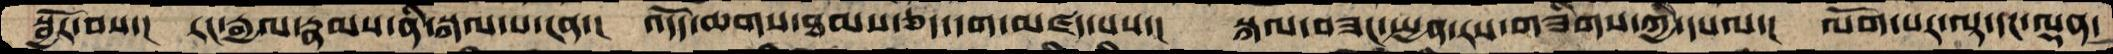སྦྱོར་བས་།  རང་རྒྱལ་རྣམས་ནི་སྐལ་པ་ངན་།   འདོད་ཆགས་ཐམས་ཅད་དག་མཛད་པས་།  སྐལ་བཟང་སྤྱན་རས་གཟིགས་ཀྱི་དཔལ་།  ལོག་པར་ལྟ་དང་ལྡན་
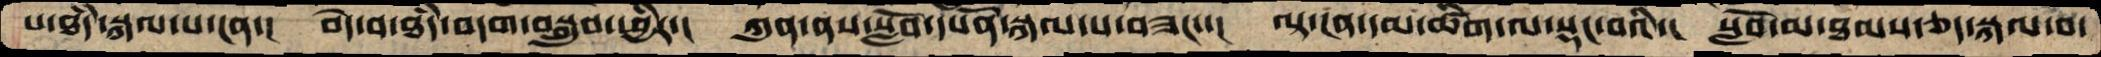པ་ཐཾད་སྐལ་པ་ངན་།   བདེ་བ་ཐཾད་བདག་བསྒྲུབ་ཕྱིར་།  ཀུན་ནས་སློབ་དཔོན་སྐལ་པ་བཟང་་།  ལྟ་ངན་དམ་ཚིག་ལ་སྡང་བའི་།  སློབ་མ་ཐམས་ཅད་སྐལ་བ་
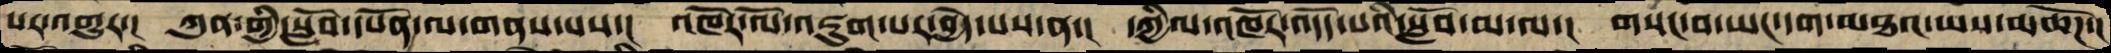པར་འགྱུར་།   ཀུན་གྱི་སློབ་དཔོན་ལ་གནས་པས་།  འཁོར་ལོ་འཇུག་པར་བྱེད་པས་ན་།  དཀྱིལ་འཁོར་འདོད་པའི་སློབ་མ་ལ་།   གསང་བ་ཡང་དག་མཐའ་ཡས་མཆོཌ་།
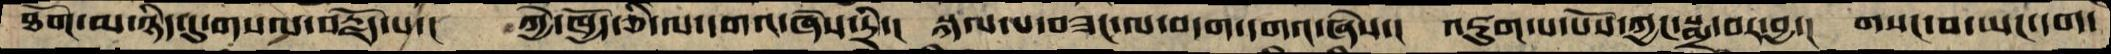ཐོག་མ་ཉིད་དུ་གསལ་བརྗོད་པ་།   ཀྱེ་ཁྱོད་ཅི་ལ་དགའ་ཞེས་དྲི་།  སྐལ་པ་བཟང་ལ་བདག་དགའ་ཞེས་།  འཇུག་པ་པོས་ཀྱང་སྨྲ་བར་བྱ་།  གསང་བ་ཡང་དག་
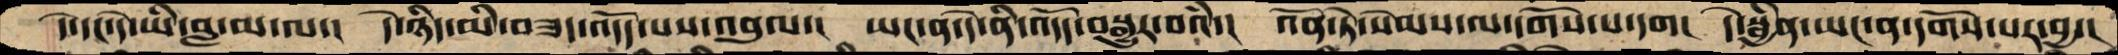དེ་དང་དེ་ནི་བླ་མ་ལ་།  དེ་ཉིད་མི་བཟད་འདོད་པས་འབུལ་།   ཡང་ན་དེ་ནི་འདོད་བསྒྱུར་བའི་།  འོན་ཏེ་སེམས་ལ་དགོས་པ་དག།  དེ་སྦྱིན་ཡང་ན་དགོས་པར་བྱ་།
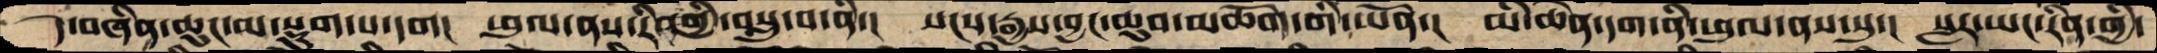དེ་བཞིན་ཆུང་མ་སྡུག་པ་དག།   ཕུལ་ནས་རིན་གྱི་བསླུ་བ་ནི་།  སངས་རྒྱས་བྱང་ཆུབ་མཆོག་གི་ཡོན་།  མི་ཆེན་དག་ནི་ཕུལ་ནས་སུ་།  སླར་ཡང་རིན་གྱི་
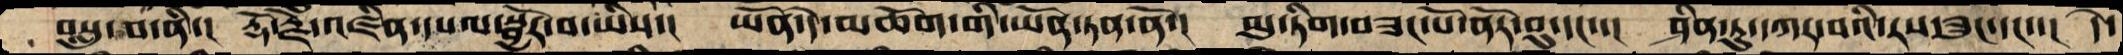བསླུ་བ་ནི་།  རྡོ་རྗེ་འཛིན་དཔལ་སྦྱོར་བ་ཡིས་།  ཡོན་དེ་མཆོག་གི་ཡོན་ཏན་ནོ་།  མུ་ཏིག་བཟང་པོ་ནོར་བུ་དང་་།  ཤིན་ཏུ་དཀར་བའི་རས་ཟུང་དང་་།  དེ་
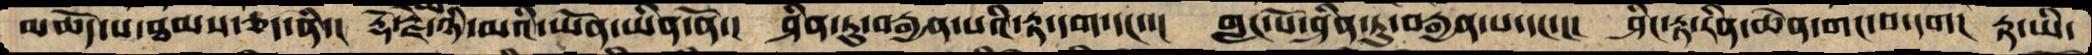མཆོད་པ་ཐམས་ཅད་ནི་།  རྡོ་རྗེ་ཉི་མའི་ཡོན་ཡིན་ནོ་།   ཤིན་ཏུ་བརྒྱན་པའི་རྟ་དག་དང་་།  གླང་པོ་ཤིན་ཏུ་བརྒྱན་པ་དང་་།  ཤིང་རྟ་རིན་ཆེན་གང་བ་དག།  རྟ་ཡི་
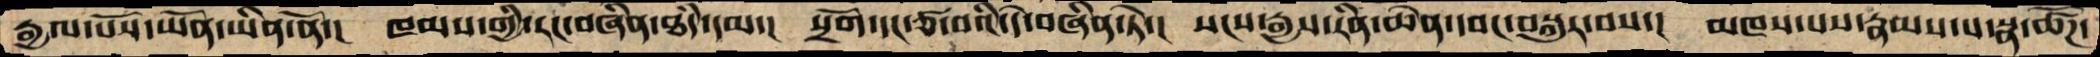རྒྱལ་པོས་ཡོན་ཡིན་ནོ་།   ཁམས་གྱི་རང་བཞིན་ཐཾད་དམ་།  སྲོག་དང་ཙ་བའི་དེ་བཞིན་ཏེ་།  སངས་རྒྱས་རིན་ཆེན་དབང་བསྐུར་བས་།  མཁས་པས་རྣམས་པ་སྣ་ཚོཌ་
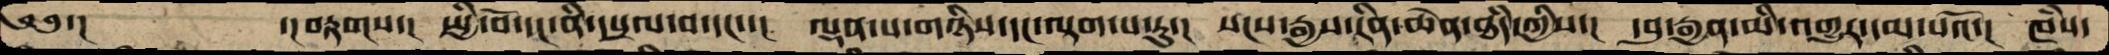༄༅་།         ་།བརྟགས་།  སྤྱི་བོ་དང་ནི་དཔྲལ་བ་དང་་།  ལྡན་པ་གཉིས་དང་ལྡག་པ་རུ་།  སངས་རྒྱས་རིན་ཆེན་ཐཾད་ཀྱིས་།  དབུ་རྒྱན་མི་འགྱུར་དམ་པའོ་།  ཁཾས་
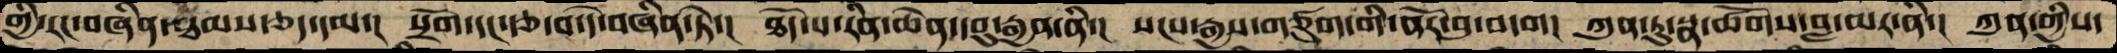གྱི་རང་བཞིན་ཐམས་ཅད་དམ།   སྲོག་དང་རྩ་བ་དེ་བཞིན་ཏེ་།  ཐོད་པ་རིན་ཆེན་དབུ་རྒྱན་ནི་།  སངས་རྒྱས་གཙུག་གི་ནོར་བུ་བདག།  ཀུན་ཏུ་སྣ་ཚོགས་བླ་མར་ནི་།  ཀུན་གྱི་ས་
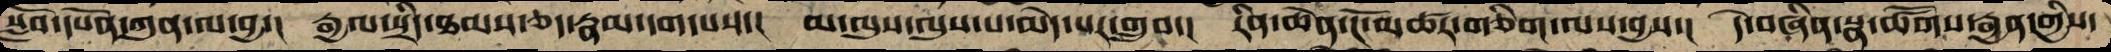སློབ་དཔོན་ཀུན་ལ་བྱ་།  རྒྱལ་སྲིད་ཐམས་ཅད་རྣམ་དག་པས་།  མ་ལུས་ལུས་པ་མེད་པར་གྲུབ་།  རིན་ཆེན་ངོ་མཚར་གཅིག་ལས་བྱས་།  དེ་བཞིན་སྣ་ཚོགས་རྒྱན་གྱིས་
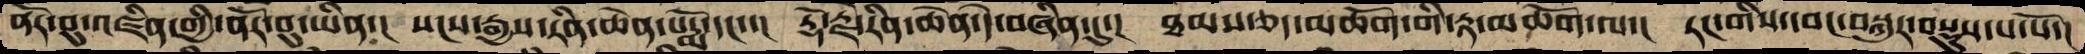ནོར་བུ་འཛིན་གྱི་ནོར་བུ་ཡིན་།  སངས་རྒྱས་རིན་ཆེན་པདྨོ་དང་་།  རྡོ་རྗེ་རིན་ཆེན་དེ་བཞིན་དུ་།  ཐམས་ཅད་མཆོག་གི་རྟ་མཆོག་ལ་།  རང་གིས་དབང་བསྐུར་བསྡུས་པ་པོ་།
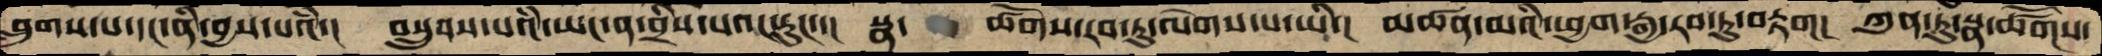བླུགས་པ་དང་ནི་བྱས་པའཾ་།  བསྲུབས་པའི་ཡང་ན་བྲིས་པའང་རུང་་།  སྣ་   ཚོགས་རབ་ཏུ་ལེགས་པ་ཡི་།  མཚན་མའི་ཕྱག་རྒྱ་རབ་ཏུ་བརྟག།  ཀུན་ཏུ་སྣ་ཚོགས་
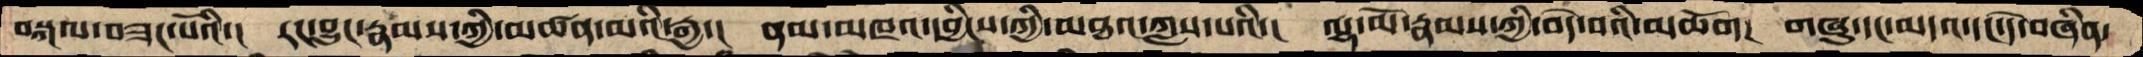བསྐལ་བཟང་པོའི་།  རང་བྱུང་རྣམས་ཀྱི་མཚན་མའི་རྒྱ་།  ནམ་མཁའ་དབྱིངས་ཀྱི་མཐའ་ཀླས་པའི་།  ལྷ་མོ་རྣམས་ཀྱི་བདེ་བའི་མཆོག།  གཞུ་དང་མདའ་དང་དེ་བཞིན་
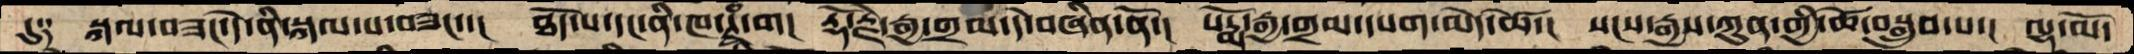དུ༑  སྐལ་བཟང་དེ་ནི་སྐལ་པ་བཟང་་།  ཐོད་པ་དང་ནི་ཁ་ཊྭཱཾ་ག།  རྡོ་རྗེ་རྒྱ་གྲམ་དེ་བཞིན་ནོ་།  པདྨོ་རྒྱ་གྲམ་དཔག་མེད་ཚེ་།  སངས་རྒྱས་ཀུན་གྱི་ཚེ་བསྒྲུབ་པ་།  ལྷ་མོ་
